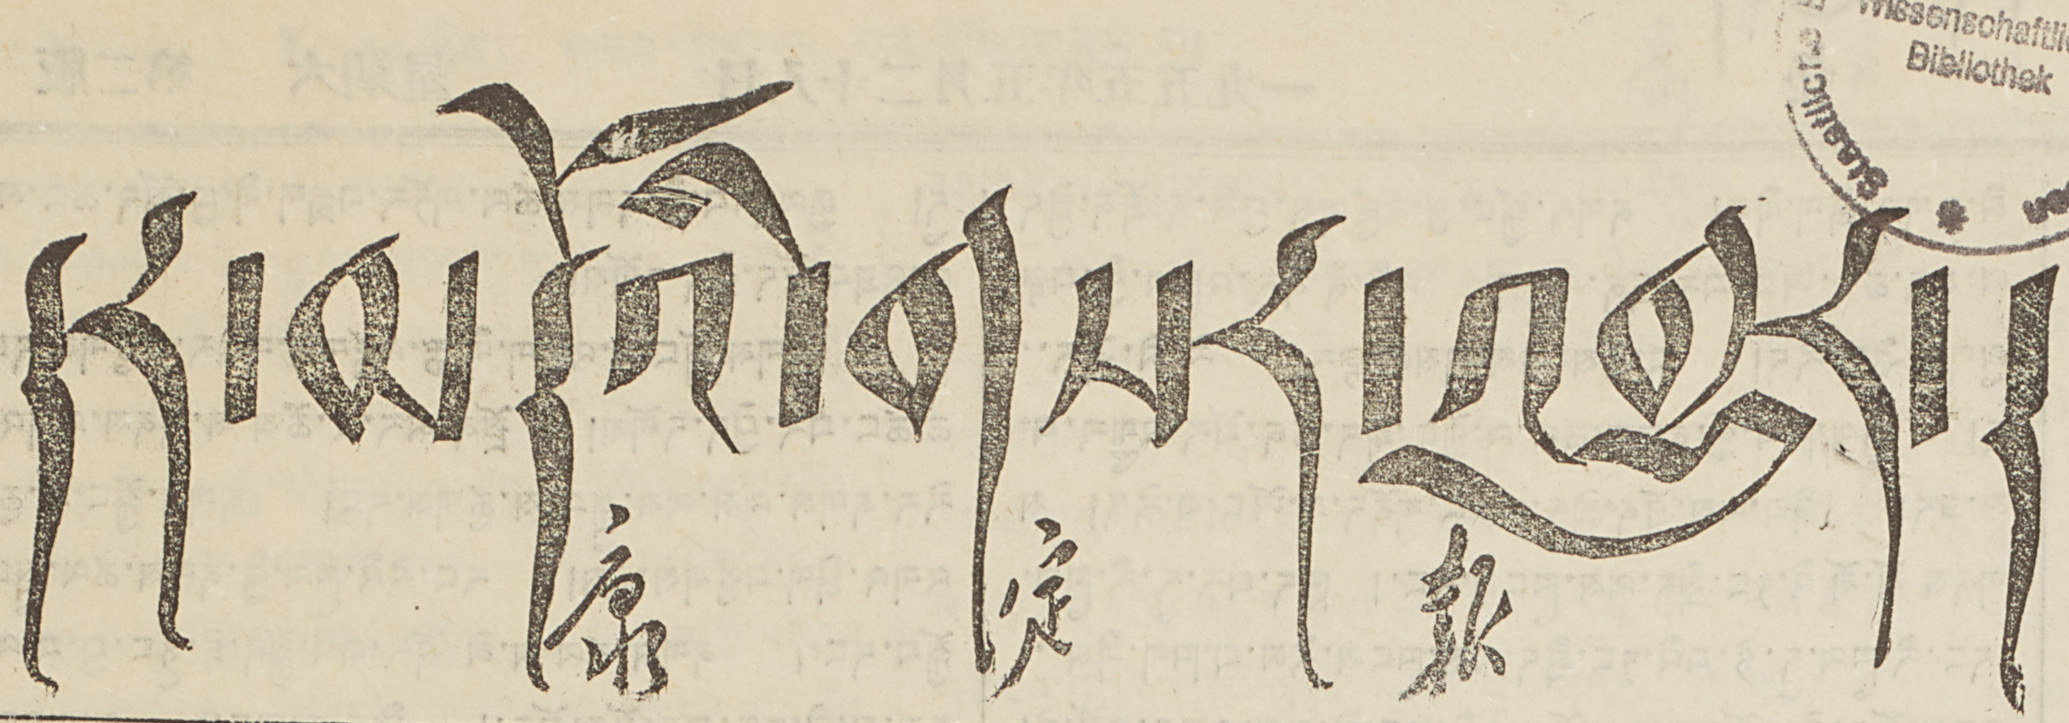དར་མདོའི་གསར་འགྱུར།
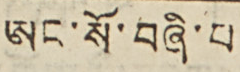ཨང་སོ་བཞི་པ
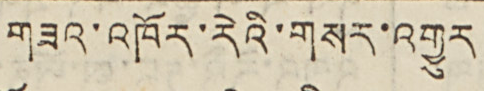གཟའ་འཁོར་རེའི་གསར་འགྱུར
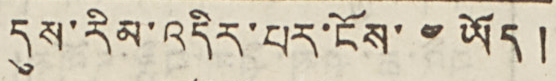དུས་རིམ་འདིར་པར་ངོས་ ༤ ཡོད།
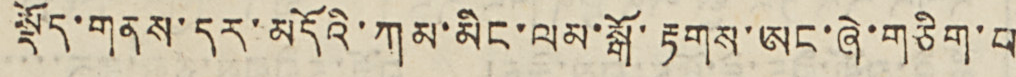སྡོད་གནས་དར་མདོའི་ཀམ་མིང་ལམ་སྒོ་རྟགས་ཨང་ཞེ་གཅིག་པ
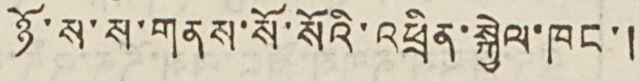ཉོ་ས་ས་གནས་སོ་སོའི་འཕྲིན་སྐྱེལ་ཁང་།
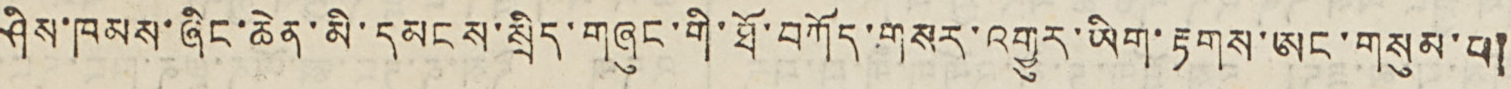ཤིས་ཁམས་ཞིང་ཆེན་མི་དམངས་སྲིད་གཞུང་གིས་ཐོ་བཀོད་གསར་འགྱུར་ཡིག་རྟགས་ཨང་གསུམ་པ།
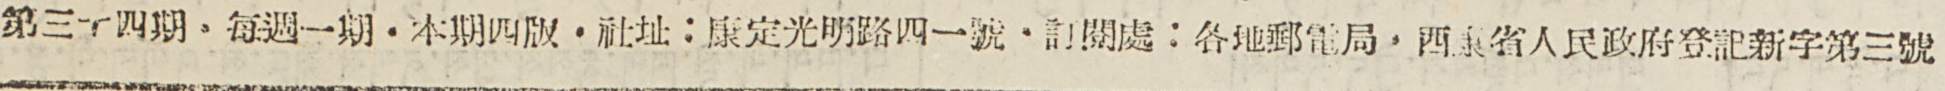第三十四期・每週一期・本期四版・社址：康定光明路四一號・訂閱處：各地郵電局・西康省人民政府登記新字第三號
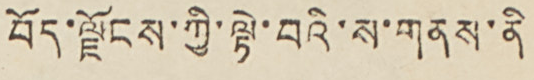བོད་ལྗོངས་ཀྱི་ལྟེ་བའི་ས་གནས་ནི
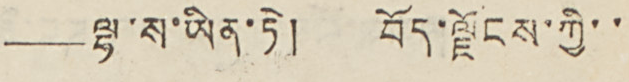——ལྷ་ས་ཡིན་ཏེ། བོད་ལྗོངས་ཀྱི་་
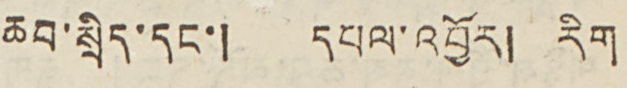ཆབ་སྲིད་དང་། དཔལ་འབྱོར། རིག
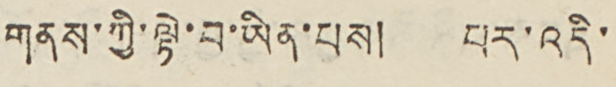གནས་ཀྱི་ལྟེ་བ་ཡིན་པས། པར་འདི་
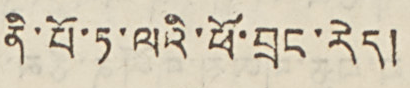ནི་པོ་ཏ་ལའི་ཕོ་བྲང་རེད།
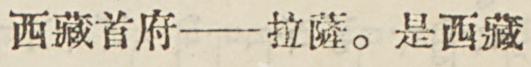西藏首府——拉薩。是西藏
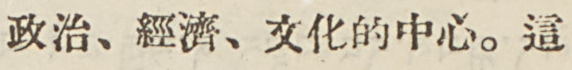政治、經濟、文化的中心。這
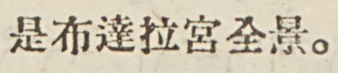是布達拉宮全景。
